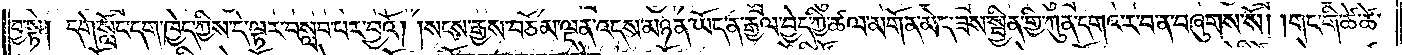བྱ་སྟེ། དགེ་སློང་དག་ཁྱེད་ཀྱིས་དེ་ལྟར་བསླབ་པར་བྱའོ། །སངས་རྒྱས་བཅོམ་ལྡན་འདས་མཉན་ཡོད་ན་རྒྱལ་བྱེད་ཀྱི་ཚལ་མགོན་མེད་ཟས་སྦྱིན་གྱི་ཀུན་དགའ་ར་བ་ན་བཞུགས་སོ། །གང་གི་ཚེ་ཚེ་
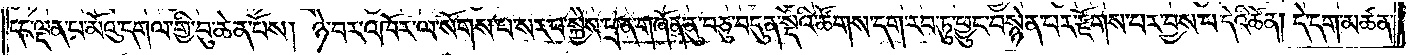དང་ལྡན་པ་མོའུ་དགལ་གྱི་བུ་ཆེན་པོས། ཉེ་བར་འཁོར་ལ་སོགས་པ་སར་པ་སྐྱེས་ཕྲན་གཞོན་ནུ་བཅུ་བདུན་སྡེའི་ཚོགས་དག་རབ་ཏུ་ཕྱུང་བསྙེན་པར་རྫོགས་པར་བྱས་པ་དེའི་ཚེ་ན། དེ་དག་མཚན་
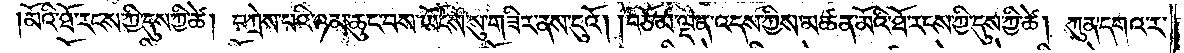མོའི་ཐོ་རངས་ཀྱི་དུས་ཀྱི་ཚེ། བཀྲེས་པའི་ཉམ་ཆུང་བས་ཡོངས་སུ་གཟིར་ནས་ངུའོ། །བཅོམ་ལྡན་འདས་ཀྱིས་མཚན་མོའི་ཐོ་རངས་ཀྱི་དུས་ཀྱི་ཚེ། ཀུན་དགའ་ར་
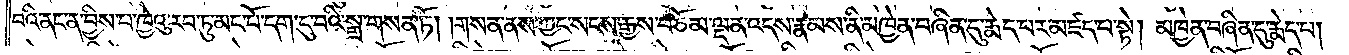བའི་ནང་ན་བྱིས་པ་ཁྱེའུ་རབ་ཏུ་མང་པོ་དག་དུ་བའི་སྒྲ་གསན་ཏོ། །གསན་ནས་ཀྱང་སངས་རྒྱས་བཅོམ་ལྡན་འདས་རྣམས་ནི་མཁྱེན་བཞིན་དུ་རྨེད་པར་མཛད་པ་སྟེ། མཁྱེན་བཞིན་དུ་རྨེད་པ།
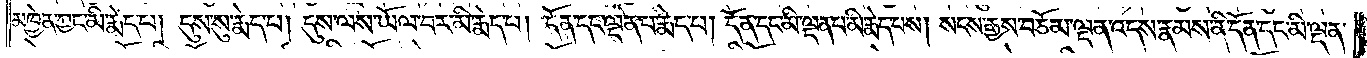མཁྱེན་ཀྱང་མི་རྨེད་པ། དུས་སུ་རྨེད་པ། དུས་ལས་ཡོལ་བར་མི་རྨེད་པ། དོན་དང་ལྡན་པ་རྨེད་པ། དོན་དང་མི་ལྡན་པ་མི་རྨེད་པས། སངས་རྒྱས་བཅོམ་ལྡན་འདས་རྣམས་ནི་དོན་དང་མི་ལྡན་
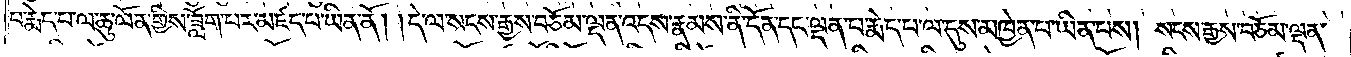པ་རྨེད་པ་ལ་ཆུ་ལོན་གྱིས་ཟློག་པར་མཛད་པ་ཡིན་ནོ། །དེ་ལ་སངས་རྒྱས་བཅོམ་ལྡན་འདས་རྣམས་ནི་དོན་དང་ལྡན་པ་རྨེད་པ་ལ་དུས་མཁྱེན་པ་ཡིན་པས། སངས་རྒྱས་བཅོམ་ལྡན་
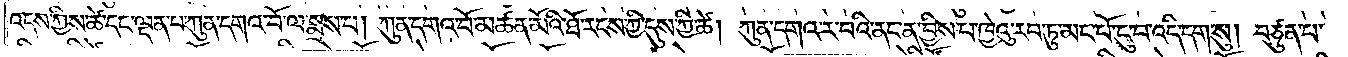འདས་ཀྱིས་ཚེ་དང་ལྡན་པ་ཀུན་དགའ་བོ་ལ་སྨྲས་པ། ཀུན་དགའ་བོ་མཚན་མོའི་ཐོ་རངས་ཀྱི་དུས་ཀྱི་ཚེ། ཀུན་དགའ་ར་བའི་ནང་ན་བྱིས་པ་ཁྱེའུ་རབ་ཏུ་མང་པོ་ངུ་བ་འདི་དག་སུ། བཙུན་པ་
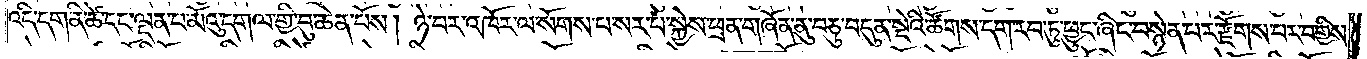འདི་དག་ནི་ཚེ་དང་ལྡན་པ་མོའུ་དགལ་གྱི་བུ་ཆེན་པོས། ཉེ་བར་འཁོར་ལ་སོགས་པ་སར་པ་སྐྱེས་ཕྲན་གཞོན་ནུ་བཅུ་བདུན་སྡེའི་ཚོགས་དག་རབ་ཏུ་ཕྱུང་ཞིང་བསྙེན་པར་རྫོགས་པར་བགྱིས་
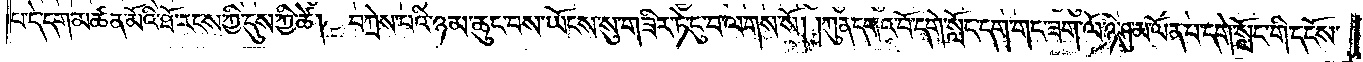པ་དེ་དག་མཚན་མོའི་ཐོ་རངས་ཀྱི་དུས་ཀྱི་ཚེ། བཀྲེས་པའི་ཉམ་ཆུང་བས་ཡོངས་སུ་གཟིར་ཏེ་ངུ་བ་ལགས་སོ། །ཀུན་དགའ་བོ་དགེ་སློང་དག་གང་ཟག་ལོ་ཉི་ཤུ་མ་ལོན་པ་དགེ་སློང་གི་དངོས་
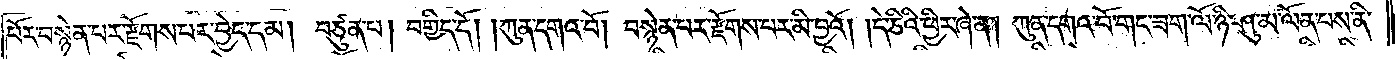པོར་བསྙེན་པར་རྫོགས་པར་བྱེད་དམ། བཙུན་པ། བགྱིད་དོ། །ཀུན་དགའ་བོ། བསྙེན་པར་རྫོགས་པར་མི་བྱའོ། །དེ་ཅིའི་ཕྱིར་ཞེ་ན། ཀུན་དགའ་བོ་གང་ཟག་ལོ་ཉི་ཤུ་མ་ལོན་པས་ནི་
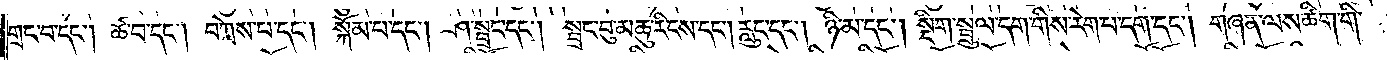གྲང་པ་དང༌། ཚ་བ་དང༌། བཀྲེས་པ་དང༌། སྐོམ་པ་དང༌། ཤ་སྦྲང་དང༌། སྦྲང་བུ་མཆུ་རིངས་དང༌། རླུང་དང༌། ཉི་མ་དང༌། སྡིག་སྦྲུལ་དག་གིས་རེག་པ་དག་དང༌། གཞན་ལས་ཚིག་གི་
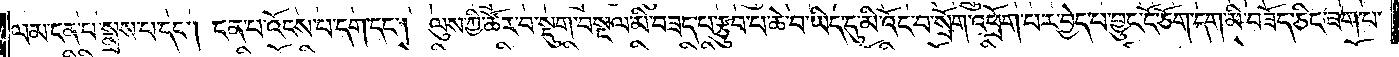ལམ་ངན་པ་སྨྲས་པ་དང༌། ངན་པ་འོངས་པ་དག་དང༌། ལུས་ཀྱི་ཚོར་བ་སྡུག་བསྔལ་མི་བཟད་པ་རྩུབ་པ་ཆེ་བ་ཡིད་དུ་མི་འོང་བ་སྲོག་འཕྲོག་པར་བྱེད་པ་བྱུང་ངོ་ཅོག་དག་མི་བཟོད་ཅིང་ཟག་པ་
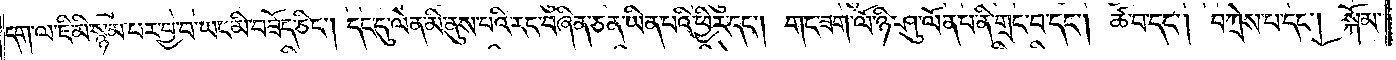དག་ལ་ཇི་མི་སྙམ་པར་བྱ་བ་ཡང་མི་བཟོད་ཅིང༌། དང་དུ་ལེན་མི་ནུས་པའི་རང་བཞིན་ཅན་ཡིན་པའི་ཕྱིར་དང༌། གང་ཟག་ལོ་ཉི་ཤུ་ལོན་པ་ནི་གྲང་བ་དང༌། ཚ་བ་དང༌། བཀྲེས་པ་དང༌། སྐོམ་
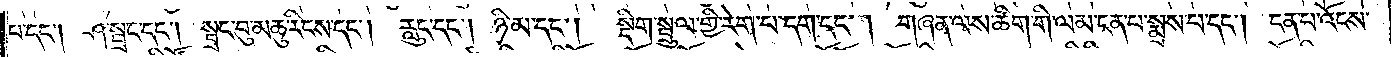པ་དང༌། ཤ་སྦྲང་དང༌། སྦྲང་བུ་མཆུ་རིངས་དང༌། རླུང་དང༌། ཉི་མ་དང༌།  སྡིག་སྦྲུལ་གྱི་རེག་པ་དག་དང༌། གཞན་ལས་ཚིག་གི་ལམ་ངན་པ་སྨྲས་པ་དང༌། ངན་པ་འོངས་
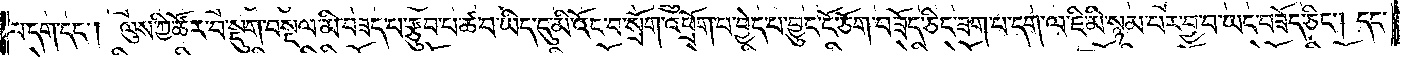པ་དག་དང༌། ལུས་ཀྱི་ཚོར་བ་སྡུག་བསྔལ་མི་བཟད་པ་རྩུབ་པ་ཚ་བ་ཡིད་དུ་མི་འོང་བ་སྲོག་འཕྲོག་པ་བྱེད་པ་བྱུང་ངོ་ཅོག་བཟོད་ཅིང་ཟག་པ་དག་ལ་ཇི་མི་སྙམ་པར་བྱ་བ་ཡང་བཟོད་ཅིང༌། དང་
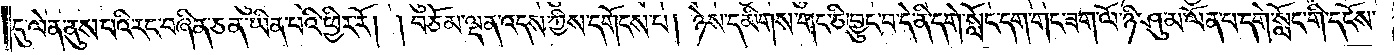དུ་ལེན་ནུས་པའི་རང་བཞིན་ཅན་ཡིན་པའི་ཕྱིར་རོ། །བཅོམ་ལྡན་འདས་ཀྱིས་དགོངས་པ། ཉེས་དམིགས་གང་ཅི་བྱུང་བ་དེ་ནི་དགེ་སློང་དག་གང་ཟག་ལོ་ཉི་ཤུ་མ་ལོན་པ་དགེ་སློང་གི་དངོས་
